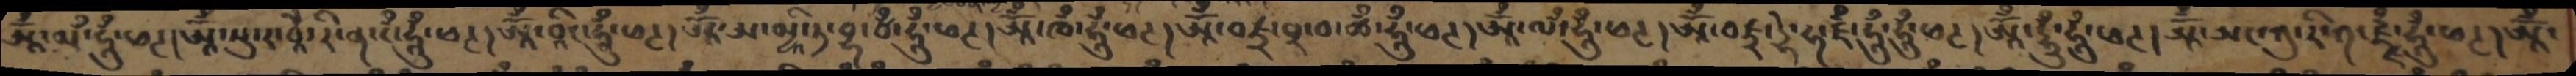ཨཱོྃ་མྃ་ཧཱུྃ་ཕཊ།ཨཱོྃ་སུ་ར་བཱཻ་རི་ན་རྃ་ཧཱུྃ་ཕཊ།ཨཱོྃ་བཱིང་ཧཱུྃ་ཕཊ།ཨཱོྃ་ཨ་མྱཱི་ཏ་བྷ་བྃ་ཧཱུྃ་ཕཊ།ཨཱོྃ་ཁྃ་ཧཱུྃ་ཕཊ།ཨཱོྃ་བཛྲ་པྲ་བ་ཚྃ་ཧཱུཾ་ཕཊ།ཨཱོཾ་ལྃ་ཧཱུྃ་ཕཊ།ཨཱོྃ་བཛྲ་དྷེ་ཧ་ཛྃ་ཧཱུྃ་ཧཱུྃ་ཕཊ།ཨཱོྃ་དྷུྃ་ཧཱུྃ་ཕཊ།ཨཱོྃ་ཨང་ཀུ་རི་ཀ་ཛྫྃ་ཧཱུཾ་ཕཊ།ཨཱོྃ་
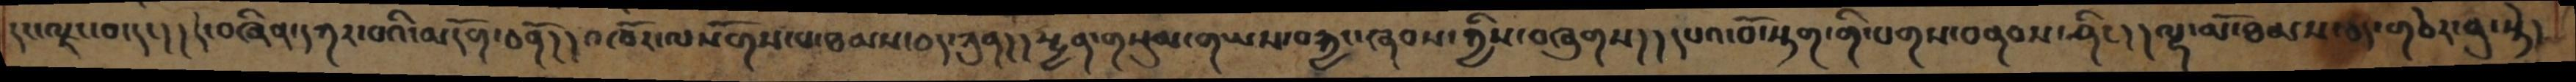དང་ལྗང་བ་དང། །དེ་བཞིན་དཀར་བའི་མདོག་ཅནོ། །འཁོར་ལསོགས་པ་ཐམས་ཅད་ཀུན། །སྤྱན་གསུམ་གཡས་བརྐྱང་ཞབས་ཀྱིས་བཞུགས། །དཔའ་བོ་སྟག་གི་པགས་བནབས་ཤིང། །ལྷ་མོ་ཐམས་ཅད་གཅེར་བུ་སྟེ།
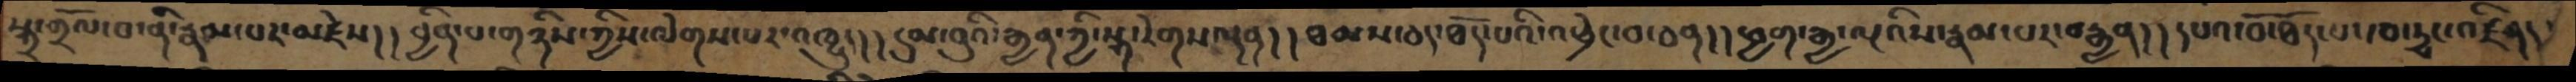སྐྲ་གྲོལ་བ་ནི་རྣམ་པར་མཛེས།། བྱིན་པ་གཉིས་ཀྱིས་ལེགས་པར་འཁྱུད། །དུམ་བུའི་རྒྱན་ཀྱི་སྐ་རེགས་ལྡན། །ཐམས་ཅད་ཐོད་པའི་འཕྲེང་བ་ཅན། །ཕྱག་རྒྱ་ལྔའིས་རྣམ་པར་བརྒྱན། །དཔའ་བོ་ཐོད་པ་ཁ་ཊྭང་འཛིན།
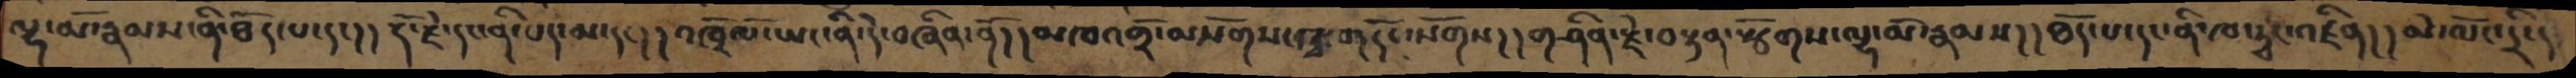ལྷ་མོ་རྣམས་ནི་ཐོད་པ་དང།། རྡོ་རྗེ་དང་ནི་པད་མ་དང། །འཁྲོལོ་ཡང་ནི་དེ་བཞིན་ནོ། །མཁའགྲོ་མསོགས་ཁྭ་གདོང་སོགས། །གཤིན་རྗེ་བརྟན་སྩོགས་ལྷ་མོ་རྣམས། །ཐོད་པ་དང་ནི་ཁ་ཊྭང་འཛིན། །མེ་ལོང་དྲི་དང་
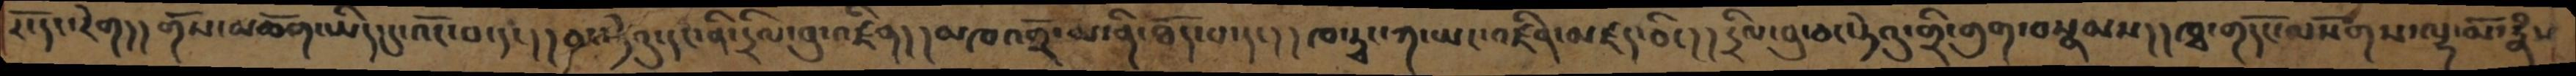རོ་དང་རེག། །གོས་མཆོག་ཡིད་དུ་འོང་བ་དང། །དཅང་ཏེའུ་དང་ནི་དྲིལ་བུ་འཛིན། །མཁའ་འགྲོ་མ་ནི་ཐོད་པ་དང། །ཁ་ཊྭང་ཀ་ཡང་འཛིན་མཛད་ཅིང། །དྲིལ་བུ་ཅང་ཏེའུ་གྲི་གུག་བསྣམས། །ཁྭ་གདོང་ལསོགས་ལྷ་མོ་རྣཾས
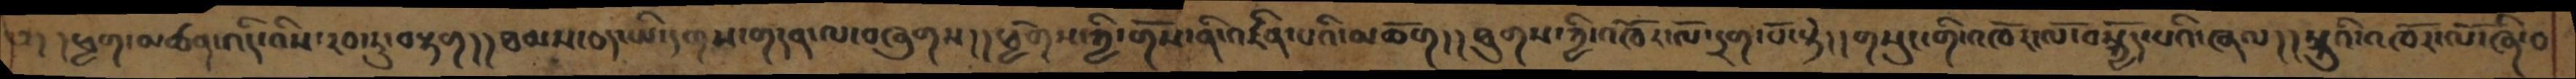༅། །ཕྱག་མཚན་འདི་འིས་རབ་ཏུ་བརྟག། །ཐམས་ཅད་ཡི་དགས་གདན་ལ་བཞུགས། །ཕྱོགས་ཀྱི་གོས་ནི་འཛིན་པའི་མཆོག། །ཐུགས་ཀྱི་འཁོར་ལོ་དྲག་པོ་སྟེ། །གསུང་གི་འཁོར་ལོ་བསྐྱོད་པའི་ཞལ།།སྐུའི་འཁོར་ལོ་ཞི་བ
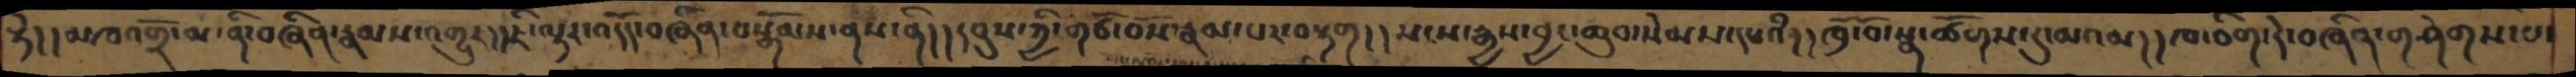སྟེ།། མཁའགྲོ་མ་ནི་བཞིན་རྣམས་འགྱུར།།ཇི་ལྟར་འདོད་བཞིན་བསྒོམས་ནས་ནི།།དབུས་ཀྱི་གཙོ་བོས་རྣམ་པར་བརྟག།།སངས་རྒྱས་བྱང་ཆུབ་སེམས་དཔའི།།ཁྲོ་བོ་སྣ་ཚོགས་དུ་མའམ།།ཁ་ཅིག་དེ་བཞིན་གཤེགས་པ་
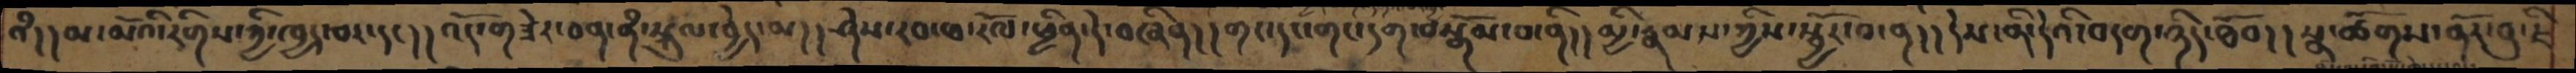འྃ། །མ་མོའི་རིགས་ཀྱི་ཁྱད་བར་དང། །འོད་གཟེར་ཅན་ནཾ་སྐུལ་བྱེད་མ། །ཤེས་རབ་ཕ་རོལ་ཕྱིན་དེ་བཞིན། །གང་དང་གང་དག་བསྒོམ་བ་ནི། །མྱི་རྣམས་ཀྱིས་སྦྱོར་བ་ན། །དེས་ནི་དེའི་བདག་ཉིད་ཐོབ། །སྣ་ཚོགས་ནོར་བུ་ཇི་
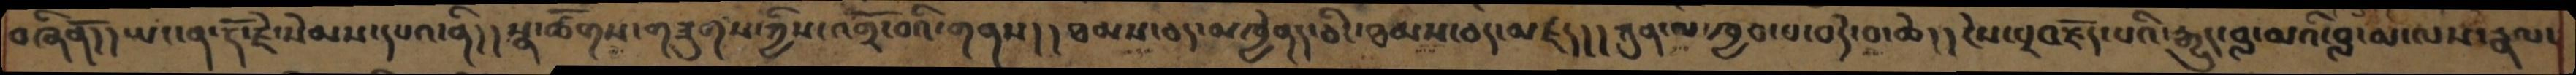བཞིནོ། །ཡང་ན་རྡོ་རྗེ་སེམས་དཔའ་ནི། །སྣ་ཚོགས་གཟུགས་ཀྱིས་འགྲོ་བའི་གནས། །ཐམས་ཅད་མཁྱེནད་ཅིང་ཐམས་ཅད་མཛད། །ཀུན་ལ་ཁྱབ་པ་བདེ་བ་ཆེ་། །ངེས་པ་བརྗོད་པའི་རྒྱུད་བླ་མའི་བླ་མ་ལས་རྣལ་
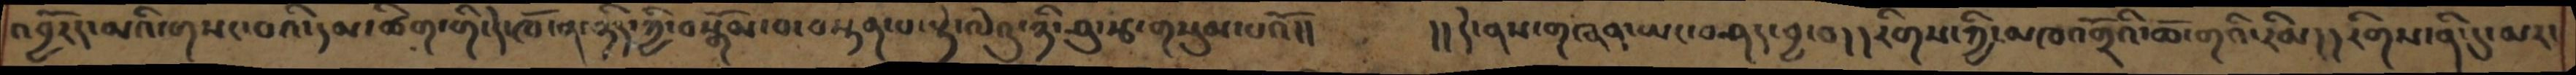འབྱོརད་མའི་གསང་བའི་དམ་ཚིག་གི་དེ་ཁོ་ན་ཉིད་ཀྱི་བསྒོམ་པ་བསྟན་པ་སྟེ་ལེའུ་ཉི་ཤུ་རྩ་གསུམ་པའོ།།  །།དེ་ནས་གཞན་ཡང་བཤད་བྱ་བ། །རིགས་ཀྱི་མཁའགྲོའི་ཆོ་གའི་རིམ། །རིགས་ནི་དུ་མར་
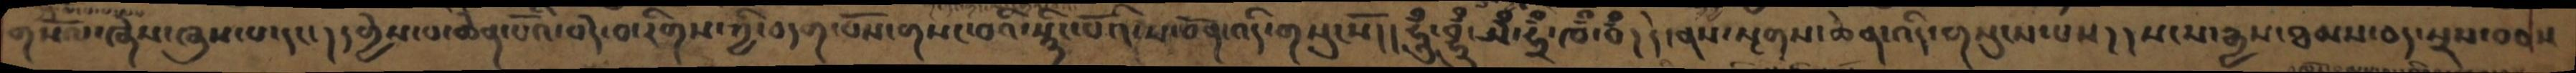གསོལ་ཞེས་ཞུས་པ་སདང་། དགྱེས་པ་ཆེན་པོའི་བདེ་བ་རིགས་ཀྱི་བདག་པོས་གསང་བའི་སྙིང་པོའི་ས་བོན་འདི་གསུངསོ། །ཧཱུྃ་བྷྲུྃ་ཡྃ་ཧྲྃ་ཁྃ་བྃ། དེ་ནས་སྔགས་ཆེན་འདི་གསུངས་པས། །སངས་རྒྱས་ཐམས་ཅད་སྲས་བཅས་
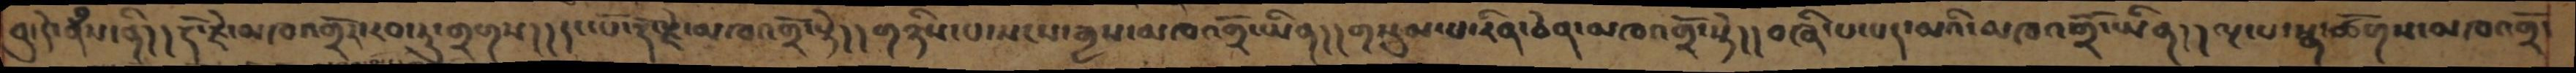བུ་དེ་རྣཾས་ནི། །རྡོ་རྗེ་མཁའགྲོར་རབ་ཏུ་གྲགས།།དང་པོ་རྡོ་རྗེ་མཁའགྲོ་སྟེ།།གཉིས་པ་སངས་རྒྱས་མཁའགྲོ་ཡིན།།གསུམ་པ་རིན་ཅེན་མཁའགྲོ་སྟེ།།བཞི་པ་པད་མའི་མཁའགྲོ་ཡིན།།ལྔ་པ་སྣ་ཚོགས་མཁའགྲོ་
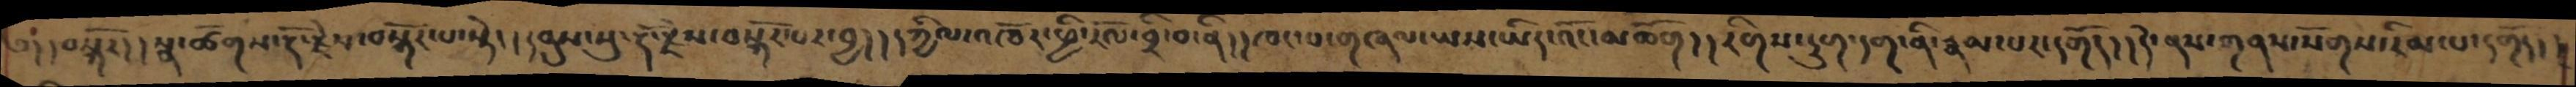༅། །བསྐོར། །སྣ་ཚོགས་རྡོ་རྗེས་བསྐོར་པ་སྟེ། །དབུས་སུ་རྡོ་རྗེས་བསྐོར་པར་བྱ། །དཀྱིལ་འཁོར་ཕྱི་རོལ་བྲི་བ་ནི། །ཁང་པ་གཞལ་ཡས་ཡིད་འོང་མཆོག། །རིགས་དྲུག་དག་ནི་རྣམ་པར་དགོད། །དེ་ནས་གནས་སོགས་རིམ་པ་དགོད།།
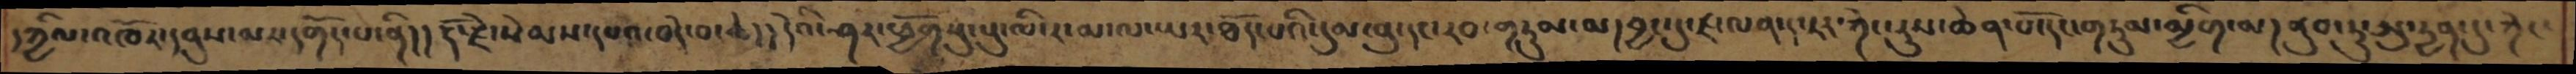དཀྱིལ་འཁོར་དབུས་མར་དགོད་པ་ནི། །རྡོ་རྗེ་སེམས་དཔའ་བདེ་བ་ཆེ། །དེའི་ཤར་ཕྱོགསུ་སུ་ལི་ར་མ་ལ་ཡར་ཐོད་པའི་དུམ་བུ་དང་རབ་གཏུམ་མ།བྱང་དུ་ཛ་ལན་ད་རར་ཀེང་རུས་ཆེན་པོ་དང་གཏུམ་མྱིག་མ། །ནུབ་ཏུ་ཨུ་དྱན་དུ་ཀེང་
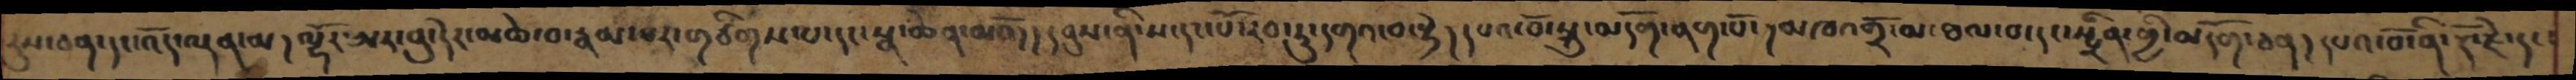རུས་ཅན་དང་འོད་ལྡན་མ།ལྷོར་ཨར་བུ་དེར་མཆེ་བ་རྣམ་པར་གཙིགས་པ་དང་སྣ་ཆེན་མཆོད།།དབུས་ནི་ས་དང་པོ་རབ་ཏུ་དགའ་བ་སྟེ། དཔའ་བོ་སྐུ་མདོག་ནག་པོ།མཁའགྲོ་མ་ཐལ་བ་དང་སྤྲིན་གྱི་མདོག་ཅན། དཔའ་བོ་ནི་རྡོ་རྗེ་དང་
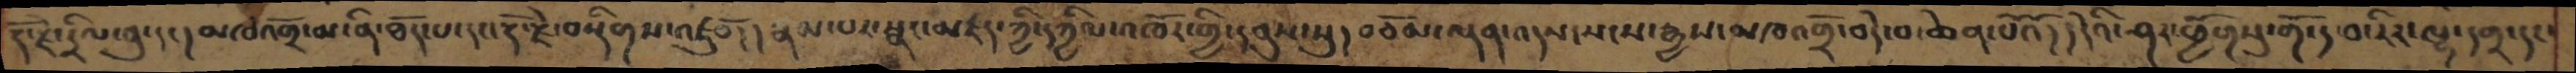རྡོ་རྗེ་དྲིལ་བུ་དང།མཁའགྲོ་མ་ནི་ཐོད་པ་དང་རྡོ་རྗེ་བསྡིགས་འཛུབོ། །རྣམ་པར་སྣང་མཛད་ཀྱི་དཀྱིལ་འཁོར་གྱི་དབུས་སུ། བཅོམ་ལྡན་འདས་སངས་རྒྱས་མཁའགྲོ་བདེ་བ་ཆེན་པོའོ། །དེའི་ཤར་ཕྱོགསུ་གོ་ད་བ་རིར་ལྷ་དགྲ་དང་
